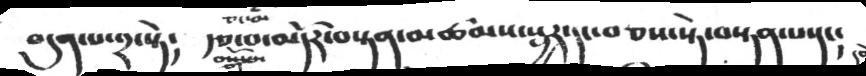བདུན་པ་༢་སྟེ༴   རྩ་བ་མདོར་བསྟན་མཚམས་སྦྱར་དང་བཅས་སྟེ་བསྟན་པ་དང༴
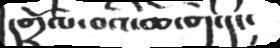དགྲོལ་བའི་ཆོ་ག་དང།
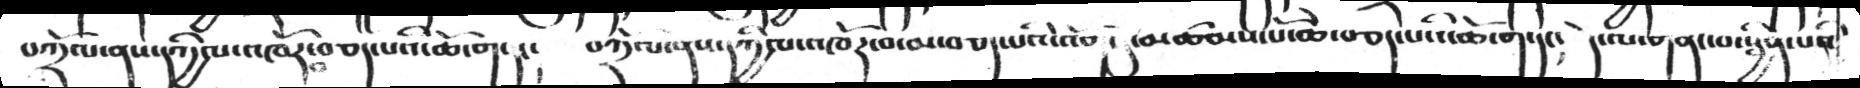བཀྲོལ་ནས་དཀྱིལ་འཁོར་བ་བཅད་པའི་ཆོ་ག་དང༴   བཀྲོལ་ནས་དཀྱིལ་འཁོར་བ་མ་བཅད་པའི་འོག་ཏུ་མཚམས་པོ་ཆེ་བཅད་པའི་ཆོ་ག་དང༴  དེ་ལ་གནང་བ་སྦྱིར་པ་
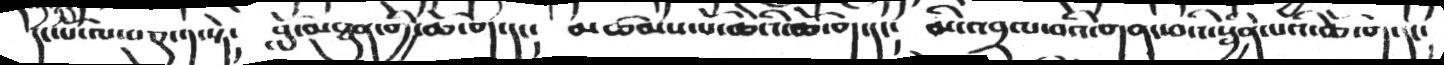དང་པོ་ལ་བཅུ་༡་སྟེ། བློ་མཐུན་གྱི་ཆོ་ག་དང། མཚམས་པོ་ཆེའི་ཆོ་ག་དང། མི་འབྲལ་བའི་གནང་བའི་སྦྱིན་པའི་ཆོ་ག་དང།
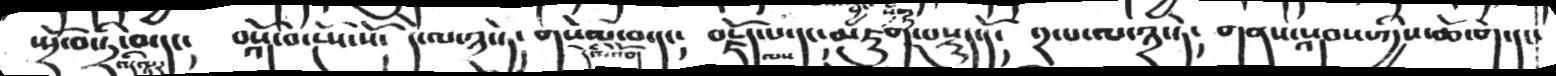སྤྲོ་བ་ཏྲི་བ་དང༴  བསྐོ་བ་རྔོས་སོ༴   དེ་ལ་༣་ཏེ༴   གསོལ་བ་དང༴  བརྗོད་པ་དང་མཇུག་བསྡུད་དོ༴   ༢་པ་ལ་༣་ཏེ༴  གནས་སྐབས་ཀྱིས་ཆོ་ག་དང་
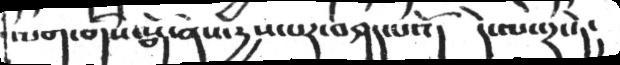ལག་གིས་སྒོ་ནས་རྱས་པར་བཤད་པའོ། དེ་ལ་༢་ཏེ།
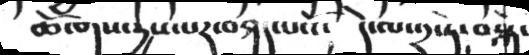ཆོ་གས་དྱས་པར་བཤད་པའོ།   དེ་ལ་༢་ཏེ་བསྐ་
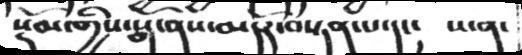སྡོམ་གྱིས་སྒོ་ནས་མདོར་བསྟན་པ་དང།  ས་ན་
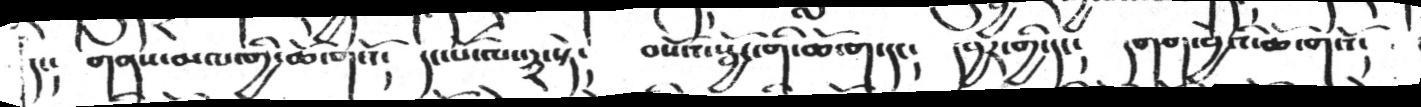དང།  གནས་མལ་གྱི་ཆོ་གའོ།  དང་པོ་ལས་༣་སྟེ།  བསོལ་སྦྱོང་གི་ཆོ་ག་དང།  དབྱར་གྱི་དང།   དགག་བྱའི་ཆོ་གའོ།
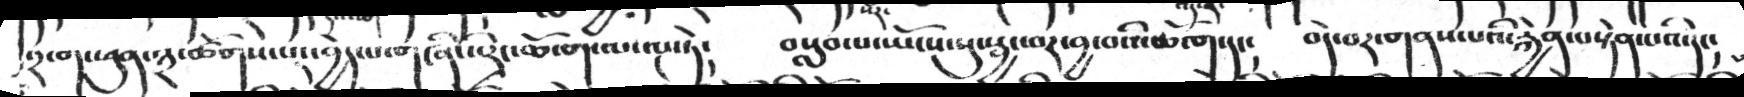༢་ག་ཕུན་༣་ཚོགས་པར་བྱེད་པ་གཞི་རང་ཆོ་ག་ལ་ལྔ་ཏེ༴   བསླབ་པ་ཡོངས་སུ་སྦྱང་བར་བྱ་བའི་ཆོ་ག་དང༴   བདེ་བར་གནས་པའི་རྐྱེན་བསྟེན་པའི་དང༴
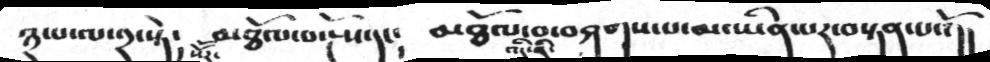༣་པ་ལ་༢་སྟེ༴  མཐོལ་བ་སྤོ་དང༴   མཐོལ་བ་བཤགས་པ་མ་ཡིན་པར་བསྟན་པའོ།།
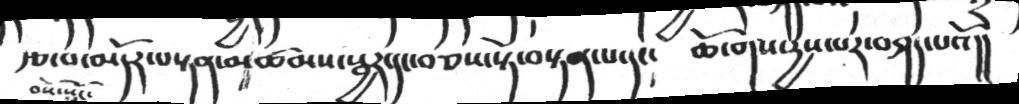རྩ་བ་མདོར་བསྟན་མཚམས་སྦྱར་དང་བཅས་སྟེ་བསྟན་པ་དང༴  ཆོ་ག་དྱས་པར་བཤད་པའོ།།
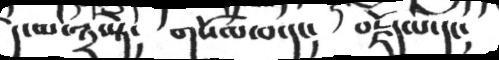དེ་ལ་༣་སྟེ། གསོལ་བ་དང། བརྗོད་པ་དང།
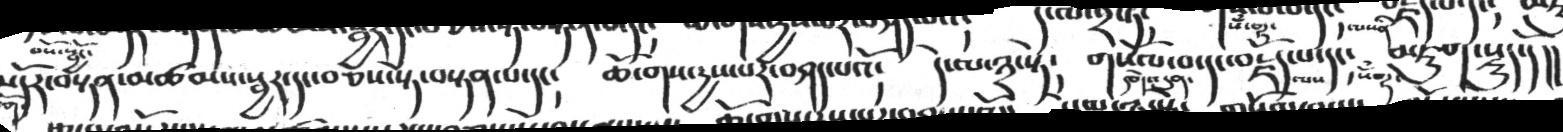མདོར་བསྟན་མཚམས་སྦྱར་དང་བཅས་སྟེ་བསྟན་པ་དང།    ཆོ་གས་རྱས་པར་བཤད་པའོ།    དེ་ལ་༣་སྟེ།    གསོལ་བ་དང་བརྗོད་པ་དང།   མཇུག་སྡུད་དོ།།
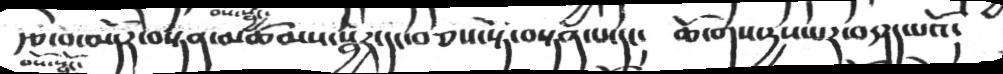རྩ་བ་མདོར་བསྟན་མཚམས་སྦྱར་དང་བཅས་སྟེ་བསྟན་པ་དང།     ཆོ་གས་རྱས་པར་བཤད་པའོ།
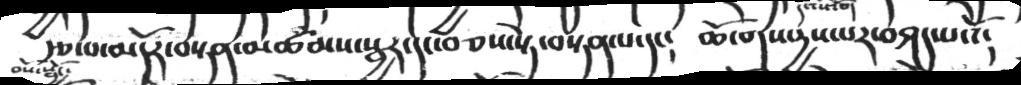རྩ་བ་མདོར་བསྟན་མཚམས་སྦྱར་དང་བཅས་སྟེ་བསྟན་པ་དང།   ཆོས་གས་རྱས་པར་བཤད་པའོ།
